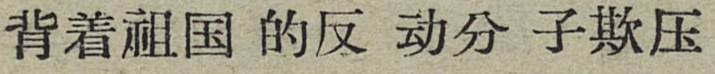背着祖国的反动分子欺压
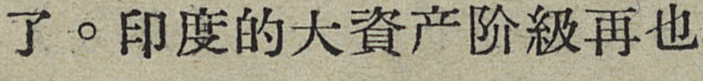了。印度的大資产阶級再也
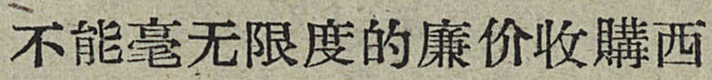不能毫无限度的廉价收購西
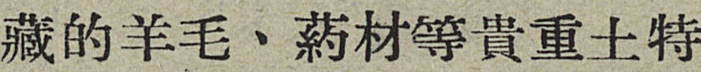藏的羊毛、葯材等貴重土特
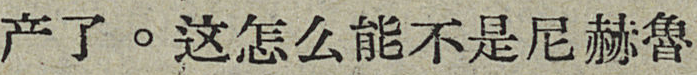产了。这怎么能不是尼赫魯
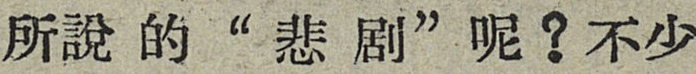所說的“悲剧”呢？不少
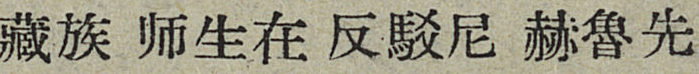藏族师生在反駁尼赫魯先
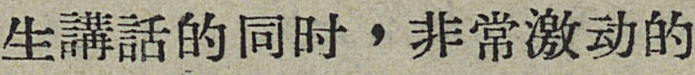生講話的同时，非常激动的
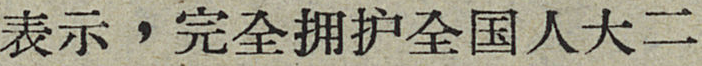表示，完全拥护全国人大二
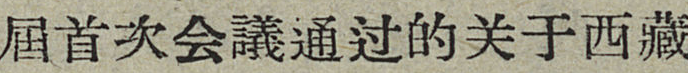届首次会議通过的关于西藏
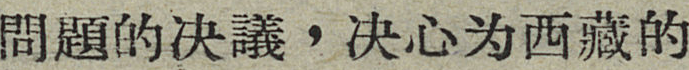問題的决議，决心为西藏的
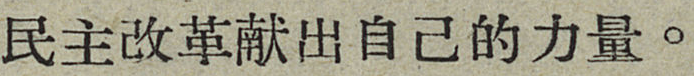民主改革献出自己的力量。
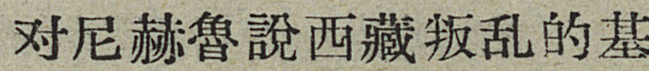对尼赫魯說西藏叛乱的基
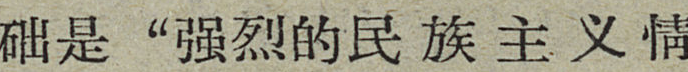础是“强烈的民族主义情
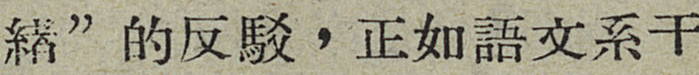緒”的反駁，正如語文系干
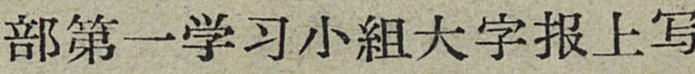部第一学习小組大字报上写
